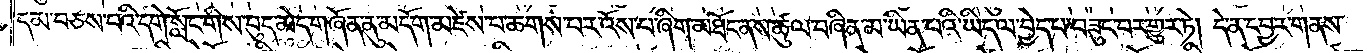དམ་བཅས་པའི་དགེ་སློང་གིས་བུད་མེད་གཞོན་ནུ་མདོག་མཛེས་པ་ཆགས་པར་འོས་པ་ཞིག་མཐོང་ནས་ཚུལ་བཞིན་མ་ཡིན་པའི་ཡིད་ལ་བྱེད་པ་བཟུང་བར་གྱུར་ཏེ། དེ་ན་དབྱར་གནས་
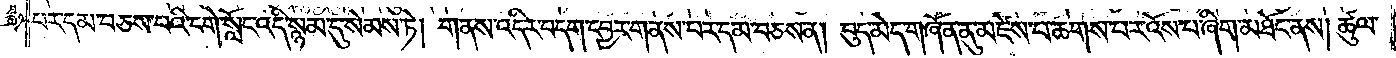པར་དམ་བཅས་པའི་དགེ་སློང་འདི་སྙམ་དུ་སེམས་ཏེ། གནས་འདིར་བདག་དབྱར་གནས་པར་དམ་བཅས་ན། བུད་མེད་གཞོན་ནུ་མཛེས་པ་ཆགས་པར་འོས་པ་ཞིག་མཐོང་ནས། ཚུལ་
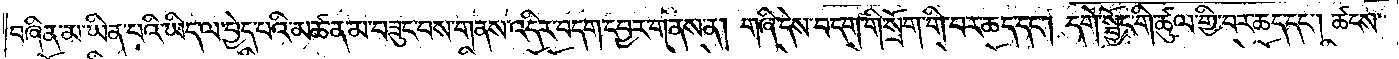བཞིན་མ་ཡིན་པའི་ཡིད་ལ་བྱེད་པའི་མཚན་མ་བཟུང་བས་གནས་འདིར་བདག་དབྱར་གནས་ན། གཞི་དེས་བདག་གི་སྲོག་གི་བར་ཆད་དང༌། དགེ་སྦྱོང་གི་ཚུལ་གྱི་བར་ཆད་དང༌། ཚངས་
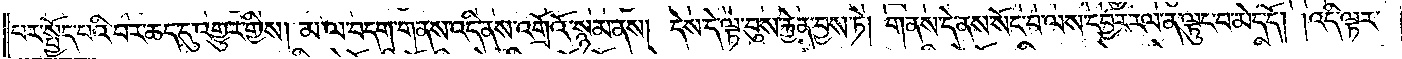པར་སྤྱོད་པའི་བར་ཆད་དུ་འགྱུར་གྱིས། མ་ལ་བདག་གནས་འདི་ནས་འགྲོའོ་སྙམ་ནས། དེས་དེ་ལྟ་བུས་རྐྱེན་བྱས་ཏེ། གནས་དེ་ནས་སོང་བ་ལས་དབྱར་རལ་ན་ལྟུང་བ་མེད་དོ། །འདི་ལྟར་
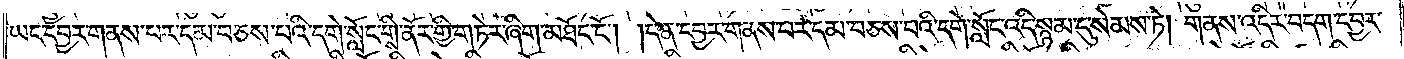ཡང་དབྱར་གནས་པར་དམ་བཅས་པའི་དགེ་སློང་གིས་ནོར་གྱི་གཏེར་ཞིག་མཐོང་ངོ༌། །དེ་ན་དབྱར་གནས་པར་དམ་བཅས་པའི་དགེ་སློང་འདི་སྙམ་དུ་སེམས་ཏེ། གནས་འདིར་བདག་དབྱར་
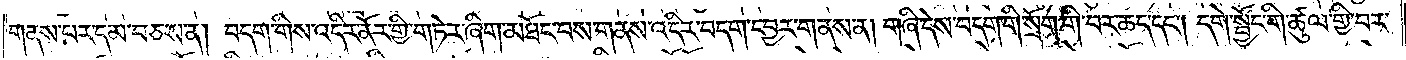གནས་པར་དམ་བཅས་ན། བདག་གིས་འདིར་ནོར་གྱི་གཏེར་ཞིག་མཐོང་བས་གནས་འདིར་བདག་དབྱར་གནས་ན། གཞི་དེས་བདག་གི་སྲོག་གི་བར་ཆད་དང༌། དགེ་སྦྱོང་གི་ཚུལ་གྱི་བར་
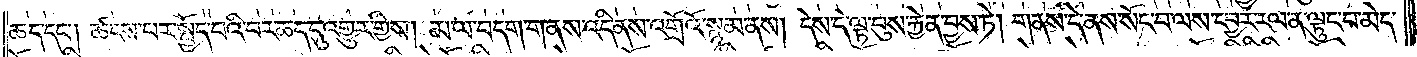ཆད་དང༌། ཚངས་པར་སྤྱོད་པའི་བར་ཆད་དུ་འགྱུར་གྱིས། མ་ལ་བདག་གནས་འདི་ནས་འགྲོའོ་སྙམ་ནས། དེས་དེ་ལྟ་བུས་རྐྱེན་བྱས་ཏེ། གནས་དེ་ནས་སོང་བ་ལས་དབྱར་རལ་ན་ལྟུང་བ་མེད་
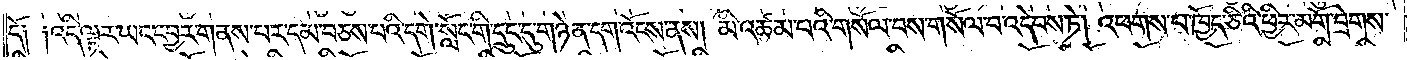དོ༑ ༑འདི་ལྟར་ཡང་དབྱར་གནས་པར་དམ་བཅས་པའི་དགེ་སློང་གི་དྲུང་དུ་གཉེན་དག་འོངས་ནས། མི་འཚམ་པའི་གསོལ་བས་གསོལ་བ་འདེབས་ཏེ། འཕགས་པ་ཁྱོད་ཅིའི་ཕྱིར་མགོ་བྲེགས་
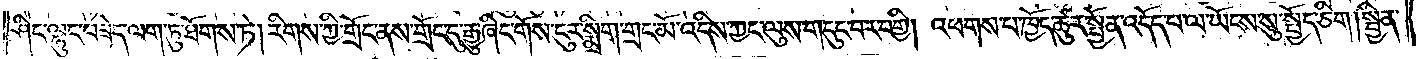ཤིང་ལྷུང་བ་ཟེད་ལག་ཏུ་ཐོགས་ཏེ། རིགས་ཀྱི་གྲོང་ནས་གྲོང་དུ་རྒྱུ་ཞིང་གོས་ངུར་སྨྲིག་གྲང་མོ་འདིས་ཀྱང་ལུས་གདུང་བར་བགྱི། འཕགས་པ་ཁྱོད་ཚུར་སྤྱོན་འདོད་པ་ལ་ཡོངས་སུ་སྤྱོད་ཅིག །སྦྱིན་
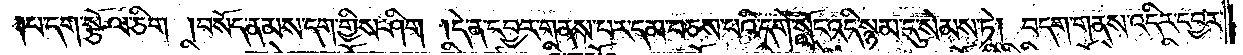པ་དག་སྩོལ་ཅིག །བསོད་ནམས་དག་གྱིས་ཤིག །དེ་ན་དབྱར་གནས་པར་དམ་བཅས་བའི་དགེ་སློང་འདི་སྙམ་དུ་སེམས་ཏེ། བདག་གནས་འདིར་དབྱར་
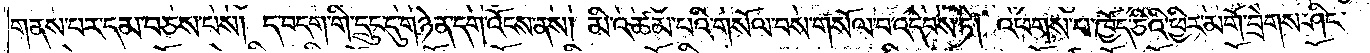གནས་པར་དམ་བཅས་པས། དེ་བདག་གི་དྲུང་དུ་གཉེན་དག་འོངས་ནས། མི་འཚམ་པའི་གསོལ་བས་གསོལ་བ་འདེབས་ཏེ། འཕགས་པ་ཁྱོད་ཅིའི་ཕྱིར་མགོ་བྲེགས་ཤིང་
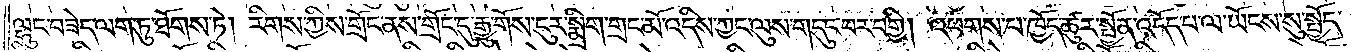ལྷུང་བཟེད་ལག་ཏུ་ཐོགས་ཏེ། རིགས་ཀྱིས་གྲོང་ནས་གྲོང་དུ་རྒྱུ་གོས་ངུར་སྨྲིག་གྲང་མོ་འདིས་ཀྱང་ལུས་གདུང་བར་བགྱི། འཕགས་པ་ཁྱོད་ཚུར་སྤྱོན་འདོད་པ་ལ་ཡོངས་སུ་སྤྱོད་
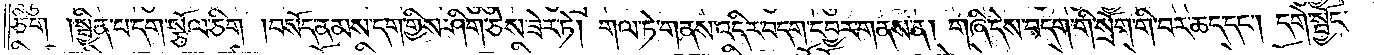ཅིག །སྦྱིན་པ་དག་སྩོལ་ཅིག །བསོད་ནམས་དག་གྱིས་ཤིག་ཅེས་ཟེར་ཏེ། གལ་ཏེ་གནས་འདིར་བདག་དབྱར་གནས་ན། གཞི་དེས་བདག་གི་སྲོག་གི་བར་ཆད་དང༌། དགེ་སྦྱོང་
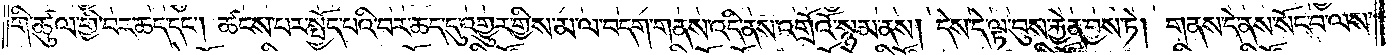གི་ཚུལ་གྱི་བར་ཆད་དང༌། ཚངས་པར་སྤྱོད་པའི་བར་ཆད་དུ་འགྱུར་གྱིས་མ་ལ་བདག་གནས་འདི་ནས་འགྲོའོ་སྙམ་ནས། དེས་དེ་ལྟ་བུས་རྐྱེན་བྱས་ཏེ། གནས་དེ་ནས་སོང་བ་ལས་
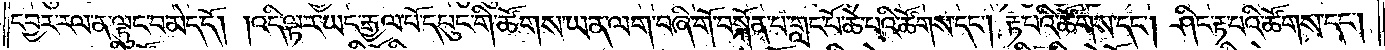དབྱར་རལ་ན་ལྟུང་བ་མེད་དོ། །འདི་ལྟར་ཡང་རྒྱལ་པོ་དཔུང་གི་ཚོགས་ཡན་ལག་བཞི་གོ་བསྐོན་པ་གླང་པོ་ཆེ་པའི་ཚོགས་དང༌། རྟ་པའི་ཚོགས་དང༌། ཤིང་རྟ་པའི་ཚོགས་དང༌།
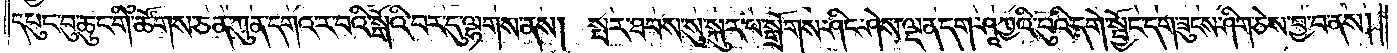དཔུང་བུ་ཆུང་གི་ཚོགས་ཅན་ཀུན་དགའ་ར་བའི་སྒོའི་བར་དུ་ལྷགས་ནས། སྤར་ཐབས་སུ་སྐུར་པ་སྒྲོགས་ཤིང་ཤེས་ལྡན་དག་ཤཱཀྱའི་བུའི་དགེ་སྦྱོང་དག་ཟུངས་ཤིག་ཅེས་བྱ་བ་ནས།
